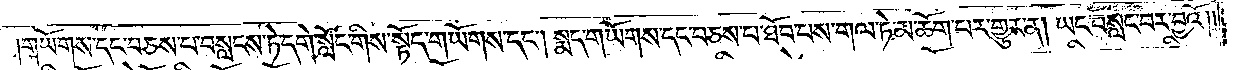།གཡོགས་དང་བཅས་པ་བསླངས་ཏེ་དགེ་སློང་གིས་སྟོད་གཡོགས་དང༌། སྨད་གཡོགས་དང་བཅས་པ་ཐོབ་པས་གལ་ཏེ་མ་ཆོག་པར་གྱུར་ན། ཡང་བསླང་བར་བྱའོ། །
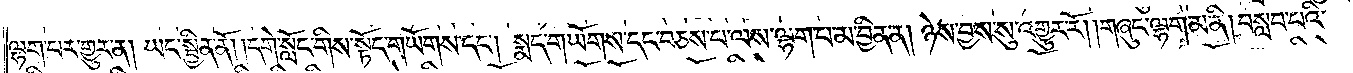ལྷག་པར་གྱུར་ན། ཡང་སྦྱིན་ནོ། །དགེ་སློང་གིས་སྟོད་གཡོགས་དང༌། སྨད་གཡོགས་དང་བཅས་པ་ལས་ལྷག་པ་མ་བྱིན་ན། ཉེས་བྱས་སུ་འགྱུར་རོ། །གཞུང་ལྷག་མ་ནི། བསླབ་པའི་
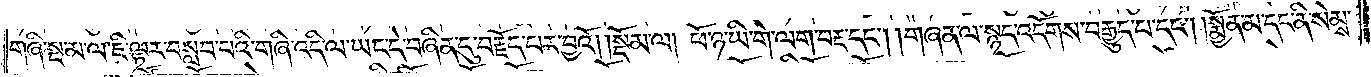གཞི་སྔ་མ་ལ་ཇི་ལྟར་བསླབ་པའི་གཞི་འདི་ལ་ཡང་དེ་བཞིན་དུ་བརྗོད་པར་བྱའོ།    །སྡོམ་ལ། ཕོ་ཉ་ཡི་གེ་ལག་བརྡ་དང༌། །གཞན་ལ་སྙད་འདོགས་བརྒྱུད་པ་དང༌། །སྨྱོན་མ་དང་ནི་སེམས་
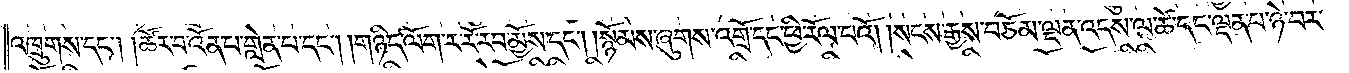འཁྲུགས་དང༌། །ཚོར་བ་འོན་པ་གླེན་པ་དང༌། །གཉིད་ལོག་ར་རོ་རབ་མྱོས་དང༌། །སྙོམས་ཞུགས་འགྲོ་དང་ཕྱི་རོལ་པའོ། །སངས་རྒྱས་བཅོམ་ལྡན་འདས་ལ་ཚེ་དང་ལྡན་པ་ཉེ་བར་
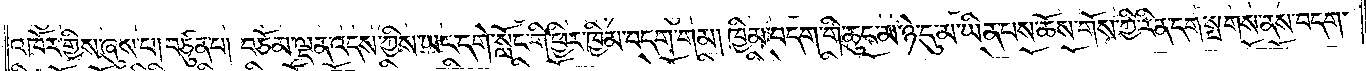འཁོར་གྱིས་ཞུས་པ། བཙུན་པ། བཅོམ་ལྡན་འདས་ཀྱིས་ཡང་དགེ་སློང་གི་ཕྱིར་ཁྱིམ་བདག་གམ། ཁྱིམ་བདག་གི་ཆུང་མ་ཉེ་དུ་མ་ཡིན་པས་ཆོས་གོས་ཀྱི་རིན་དག་སྤགས་ནས་བདག་
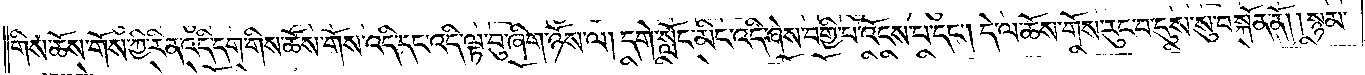གིས་ཆོས་གོས་ཀྱི་རིན་འདི་དག་གིས་ཆོས་གོས་འདི་དང་འདི་ལྟ་བུ་ཞིག་ཉོས་ལ། དགེ་སློང་མིང་འདི་ཞེས་བགྱི་པ་འོངས་པ་དང༌། དེ་ལ་ཆོས་གོས་རུང་བ་དུས་སུ་བསྐོན་ནོ། །སྙམ་
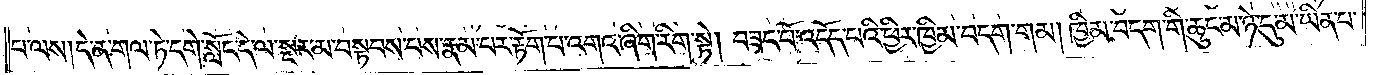པ་ལས། དེ་ན་གལ་ཏེ་དགེ་སློང་དེ་ལ་སྔར་མ་བསྟབས་པས་རྣམ་པར་རྟོག་པ་འགའ་ཞིག་རིག་སྟེ། བཟང་པོ་འདོད་པའི་ཕྱིར་ཁྱིམ་བདག་གམ། ཁྱིམ་བདག་གི་ཆུང་མ་ཉེ་དུ་མ་ཡིན་པ་
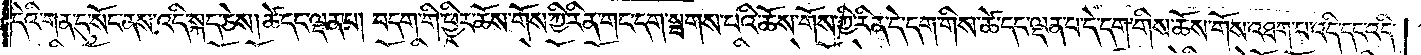དེའི་གན་དུ་སོང་ནས་འདི་སྐད་ཅེས། ཚེ་དང་ལྡན་པ། བདག་གི་ཕྱིར་ཆོས་གོས་ཀྱི་རིན་གང་དག་སྤགས་པའི་ཆོས་གོས་ཀྱི་རིན་དེ་དག་གིས་ཚེ་དང་ལྡན་པ་དེ་དག་གིས་ཆོས་གོས་འཐག་པ་འདི་དང་འདི་
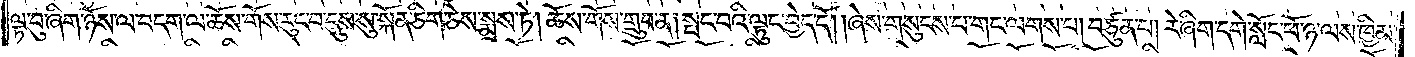ལྟ་བུ་ཞིག་ཉོས་ལ་བདག་ལ་ཆོས་གོས་རུང་བ་དུས་སུ་སྐོན་ཅིག་ཅེས་སྨྲས་ཏེ། ཆོས་གོས་གྲུབ་ན། སྤང་བའི་ལྟུང་བྱེད་དོ། །ཞེས་གསུངས་པ་གང་ལགས་པ། བཙུན་པ། རེ་ཞིག་དགེ་སློང་ཕོ་ཉ་ལས་ཁྱིམ་
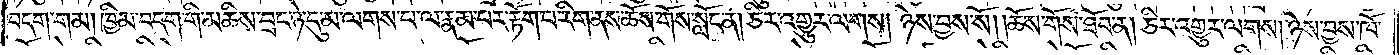བདག་གམ། ཁྱིམ་བདག་གི་མཆིས་བྲང་ཉེ་དུ་མ་ལགས་པ་ལ་རྣམ་པར་རྟོག་པ་རིག་ནས་ཆོས་གོས་སློང་ན། ཅིར་འགྱུར་ལགས། ཉེས་བྱས་སོ། །ཆོས་གོས་ཐོབ་ན། ཅིར་འགྱུར་ལགས། ཉེས་བྱས་ཁོ་
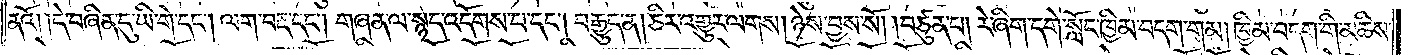ནའོ། །དེ་བཞིན་དུ་ཡི་གེ་དང༌། ལག་བརྡ་དང༌། གཞན་ལ་སྙད་འདོགས་པ་དང༌། བརྒྱུད་ན། ཅིར་འགྱུར་ལགས། ཉེས་བྱས་སོ། །བཙུན་པ། རེ་ཞིག་དགེ་སློང་ཁྱིམ་བདག་གམ། ཁྱིམ་བདག་གི་མཆིས་
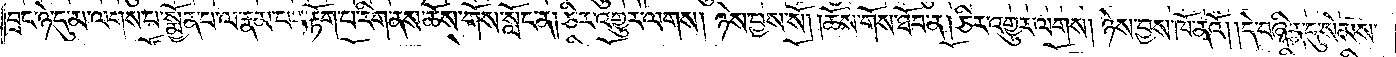བྲང་ཉེ་དུ་མ་ལགས་པ་སྨྱོན་པ་ལ་རྣམ་པར་རྟོག་པ་རིག་ནས་ཆོས་གོས་སློང་ན། ཅིར་འགྱུར་ལགས། ཉེས་བྱས་སོ། །ཆོས་གོས་ཐོབ་ན། ཅིར་འགྱུར་ལགས། ཉེས་བྱས་ཁོ་ནའོ། །དེ་བཞིན་དུ་སེམས་
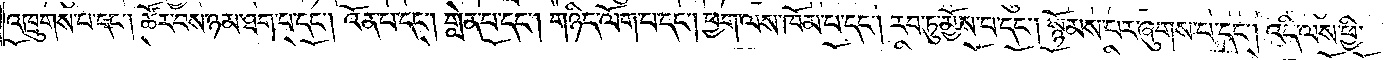འཁྲུགས་པ་དང༌། ཚོར་བས་ཉམ་ཐག་པ་དང༌། འོན་པ་དང༌། གླེན་པ་དང༌། གཉིད་ལོག་པ་དང༌། ཕྱག་ལས་ཁོམ་པ་དང༌། རབ་ཏུ་མྱོས་པ་དང༌། སྙོམས་པར་ཞུགས་པ་དང༌། འདི་ལས་ཕྱི་
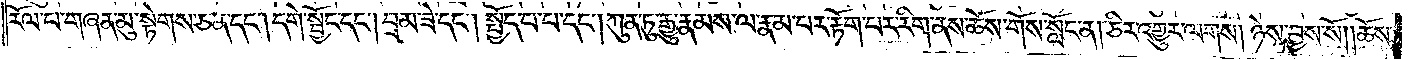རོལ་པ་གཞན་མུ་སྟེགས་ཅན་དང༌། དགེ་སྦྱོང་དང༌། བྲམ་ཟེ་དང༌། སྤྱོད་པ་པ་དང༌། ཀུན་ཏུ་རྒྱུ་རྣམས་ལ་རྣམ་པར་རྟོག་པར་རིག་ནས་ཆོས་གོས་སློང་ན། ཅིར་འགྱུར་ལགས། ཉེས་བྱས་སོ། །ཆོས་
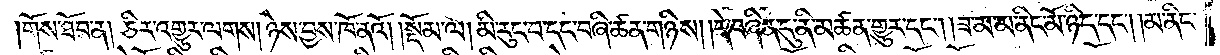།གོས་ཐོབ་ན། ཅིར་འགྱུར་ལགས། ཉེས་བྱས་ཁོ་ནའོ།    །སྡོམ་ལ། མི་རུང་བ་དང་བཞི་ཚན་གཉིས། །དེ་བཞིན་དུ་ནི་མཚན་གྱུར་དང༌། །ཟ་མ་མ་ནིང་མོ་ཉིད་དང༌། །མ་ནིང་
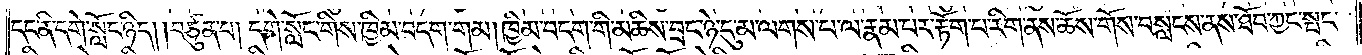དང་ནི་དགེ་སློང་ཉིད། བཙུན་པ། དགེ་སློང་གིས་ཁྱིམ་བདག་གམ། ཁྱིམ་བདག་གི་མཆིས་བྲང་ཉེ་དུ་མ་ལགས་པ་ལ་རྣམ་པར་རྟོག་པ་རིག་ནས་ཆོས་གོས་བསླངས་ནས་ཐོབ་ཀྱང་སྤང་
